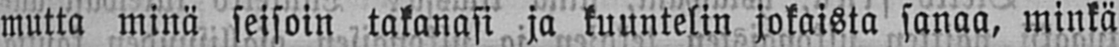mutta minä seisoin takanasi ja kuuntelin jokaista sanaa, minkä
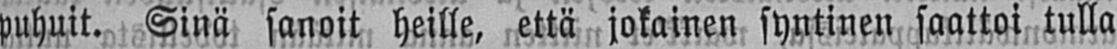puhuit. Sinä sanoit heille, että jokainen syntinen saattoi tulla
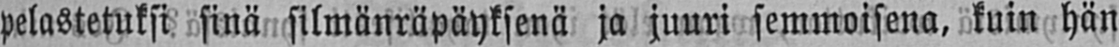pelastetuksi sinä silmänräpäyksenä ja juuri semmoisena, kuin hän
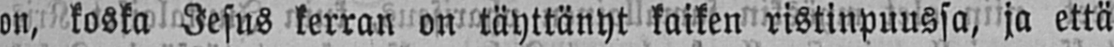on, koska Jesus kerran on täyttänyt kaiken ristinpuussa, ja että
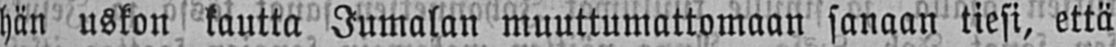hän uskon kautta Jumalan muuttumattomaan sanaan tiesi, että
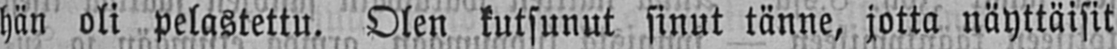hän oli pelastettu. Olen kutsunut sinut tänne, jotta näyttäisit
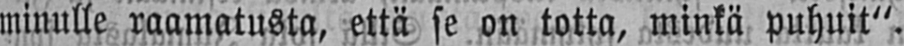minulle raamatusta, että se on totta, minkä puhuit".
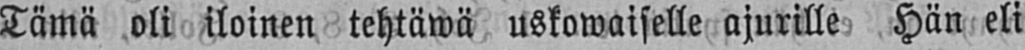Tämä oli iloinen tehtäwä uskowaiselle ajurille Hän eli
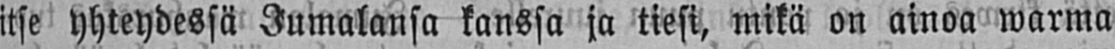itse yhteydessä Jumalansa kanssa ja tiesi, mikä on ainoa warma
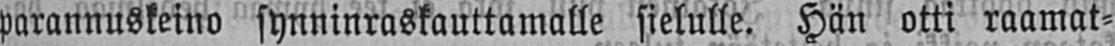parannuskeino synninraskauttamalle sielulle. Hän otti raamat-
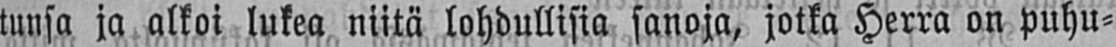tunsa ja alkoi lukea niitä lohdullisia sanoja, jotka Herra on puhu-
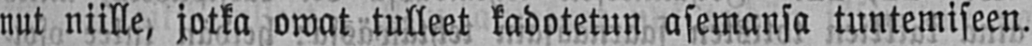nut niille, jotka owat tulleet kadotetun asemansa tuntemiseen.
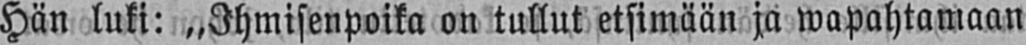Hän luki: „Ihmisenpoika on tullut etsimään ja wapahtamaan
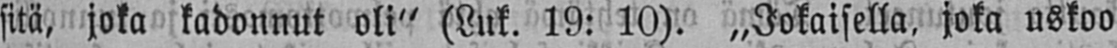sitä, joka kadonnut oli" (Luk. 19: 10). „Jokaisella. joka uskoo
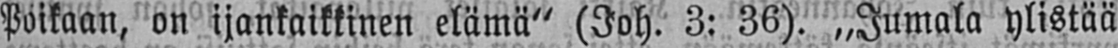Poikaan, on ijankaikkinen elämä" (Joh.3: 36). „Jumala ylistää
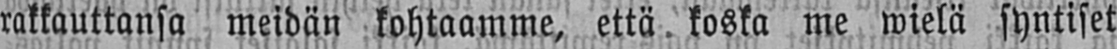rakkauttansa meidän kohtaamme, että koska me wielä syntiset
